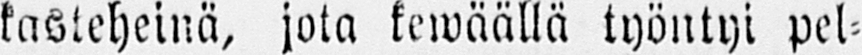kasteheinä, jota kewäällä työntyi pel-
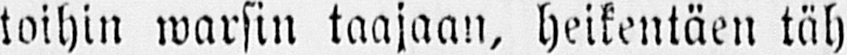toihin warsin taajaan, heikentäen täh-
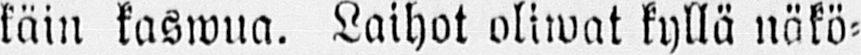käin kaswua. Laihot oliwat kyllä näkö-
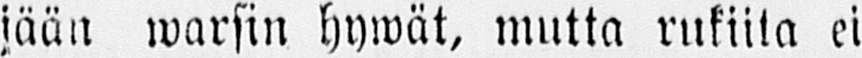jään warsin hywät, mutta rukiita ei
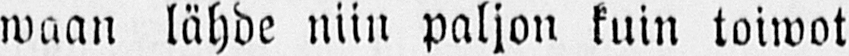waan lähde niin paljon kuin toiwot
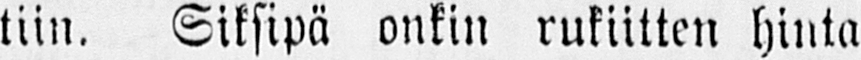tiin. Siksipä onkin rukiitten hinta
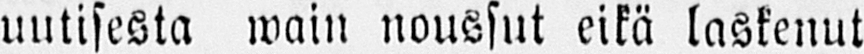uutisesta wain noussut eikä laskenut
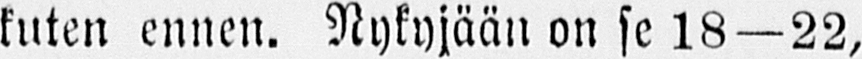kuten ennen. Nykyjään on se 18 — 22,
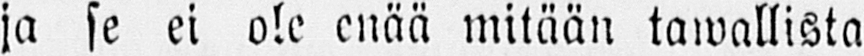ja se ei ole enää mitään tawallista
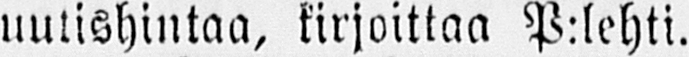uutishintaa, kirjoittaa P:lehti.
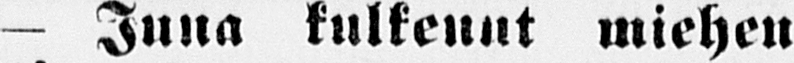— Juna kulkenut miehen
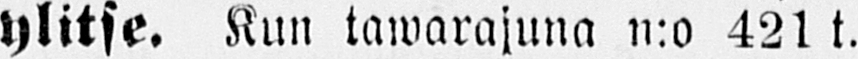ylitse. Kun tawarajuna n:o 421 t.
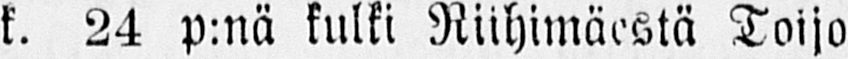k. 24 p:nä kulki Riihimäestä Toijo
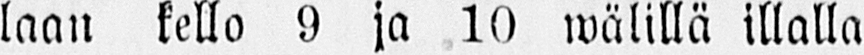laan kello 9 ja 10 wälillä illalla
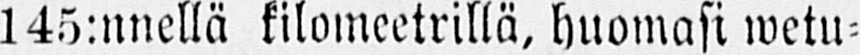145:nnellä kilomeetrillä, huomasi wetu-
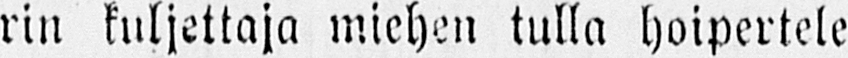rin kuljettaja miehen tulla hoipertele-
